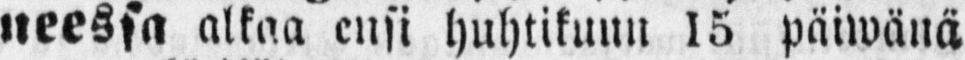neessä alkaa ensi huhtikuun 15 päiwänä
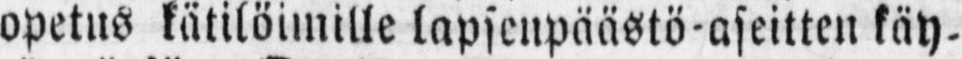opetus kätilöimille lapsenpäästö- aseitten käy-
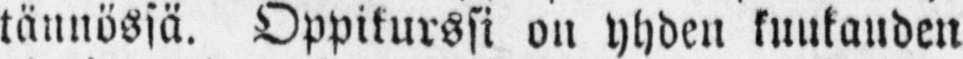tännössä. Oppikurssi on yhden kuukauden
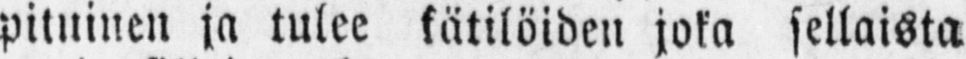pituinen ja tulee kätilöiden joka sellaista
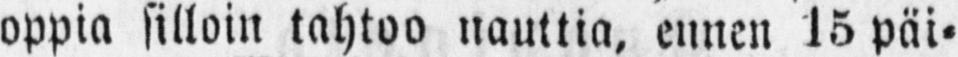oppia silloin tahtoo nauttia, ennen 15 päi-
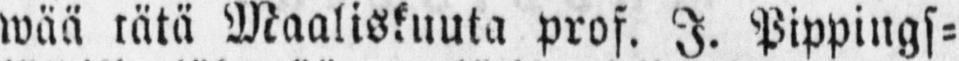wää tätä Maaliskuuta prof. I. Pippings-
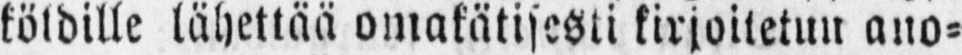köldille lähettää omakätisesti kirjoitetun ano-
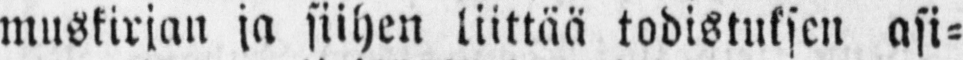muskirjan ja siihen liittää todistuksen asi-
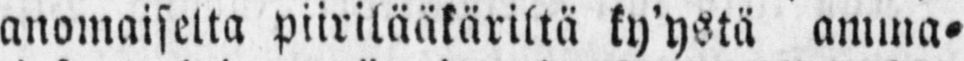anomaiselta piirilääkäriltä ky'ystä amma-
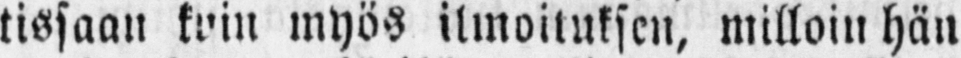tissaan kuin myös ilmoituksen, milloin hän
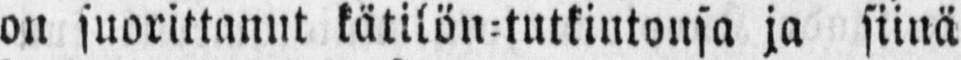on suorittanut kätilön-tutkintonsa ja siinä
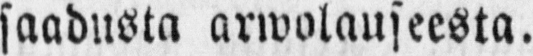saadusta arwolauseesta.
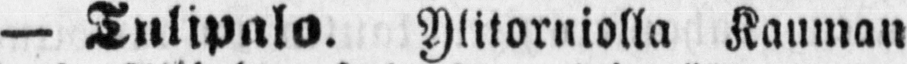— Tulipalo. Ylitorniolla Kauman
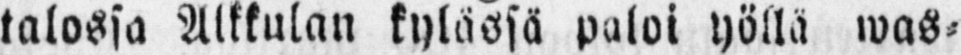talossa Alkkulan kylässä paloi yöllä was-
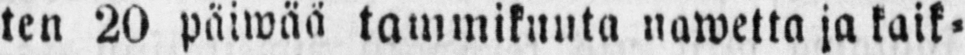ten 20 paiwää tammikuuta nawetta ja kaik-
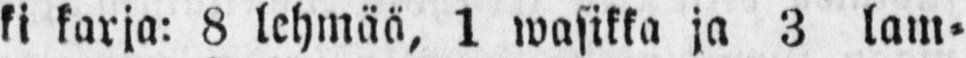ki karja: 8 lehmää, 1 wasikka ja 3 lam-
